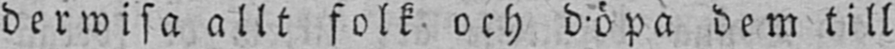derwisa allt folk och döpa dem till
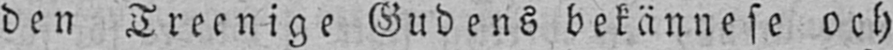den Treenige Gudens bekännese och
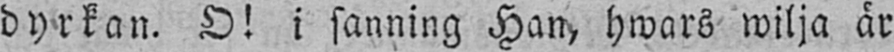dyrkan. O! i sanning Han, hwars wilja är
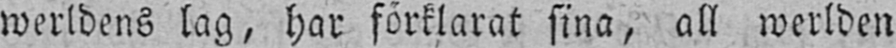werldens lag, har förklarat sina, all werlden
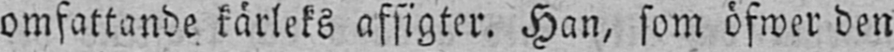omfattande kärleks afsigter. Han, som öfwer den
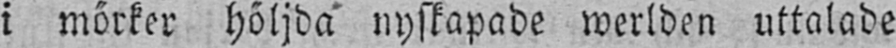i mörker höljda nyskapade werlden uttalade
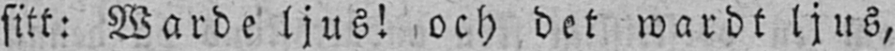sitt: Warde ljus! och det wardt ljus,
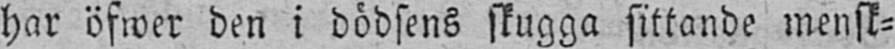har öfwer den i dödsens skugga sittande mensk-
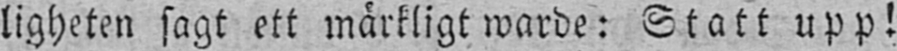ligheten sagt ett märkligt warde: Statt upp!
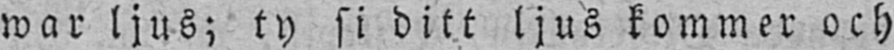war ljus; ty si ditt ljus kommer och
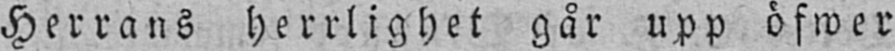Herrans herrlighet går upp öfwer
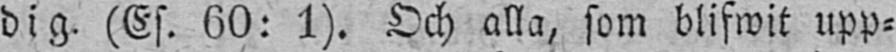dig. (Es. 60: 1). Och alla, som blifwit upp-
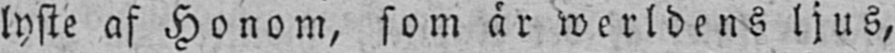lyste af Honom, som är werldens ljus,
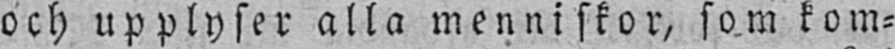och upplyser alla menniskor, som kom-
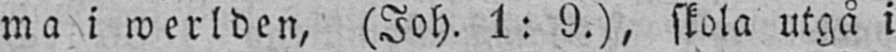ma i werlden, (Joh. 1: 9.), skola utgå i
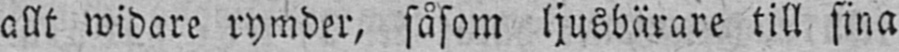allt widare rymder, såsom ljusbärare till sina
